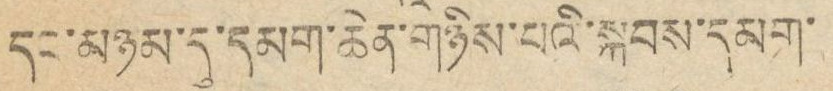དང་མཉམ་དུ་དམག་ཆེན་གཉིས་པའི་སྐབས་དམག་
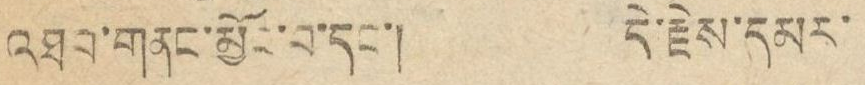འཐབ་གནང་མྱོང་བ་དང་། དེ་རྗེས་དམར་
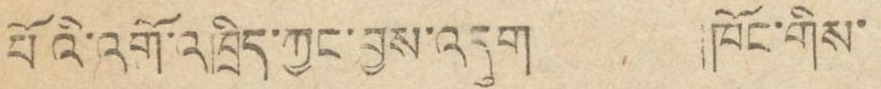པོའི་འགོ་འཁྲིད་ཀྱང་བྱས་འདུག །ཁོང་གིས་
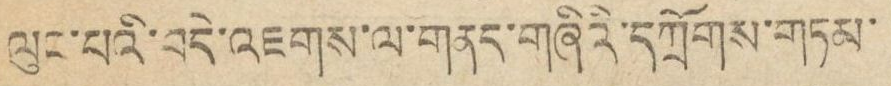ལུང་པའི་བདེ་འཇགས་ལ་གནད་གཞིའི་དཀྲོགས་གཏམ་
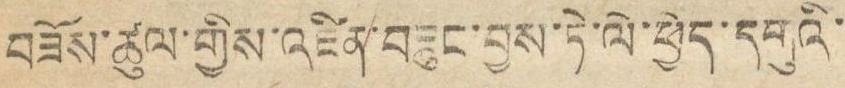བཟོས་ཚུལ་གྱིས་འཛིན་བཟུང་བྱས་ཏེ་ལེ་ཕྱེད་དགུའི་
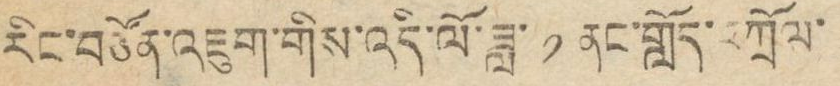རིང་བཙོན་འཇུག་གིས་འདི་ལོ་ཟླ་ ༡ ནང་གློད་བཀྲོལ་
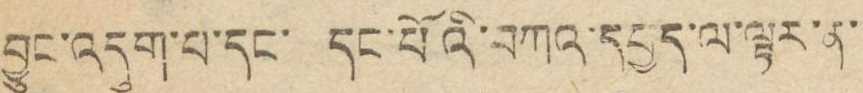བྱུང་འདུག་པ་དང་ དང་པོའི་བཀའ་དཔྱད་ལ་ལྟར་ན་
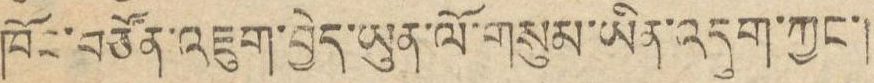ཁོང་བཙོན་འཇུག་བྱེད་ཡུན་ལོ་གསུམ་ཡིན་འདུག་ཀྱང་།
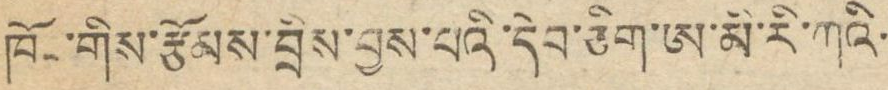ཁོང་གིས་རྩོམས་བྲིས་བྱས་པའི་དེབ་ཅིག་ཨ་མི་རི་ཀའི་
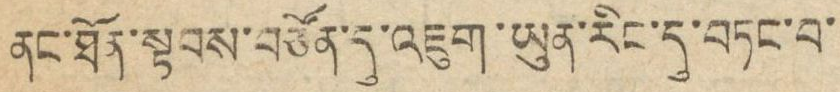ནང་ཐོན་སྟབས་བཙོན་དུ་འཇུག་ཡུན་རིང་དུ་བཏང་བ་
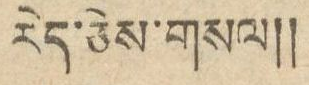རེད་ཅེས་གསལ།།
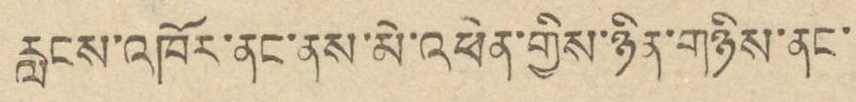རླངས་འཁོར་ནང་ནས་མེ་འཕེན་གྱིས་ཉིན་གཉིས་ནང་
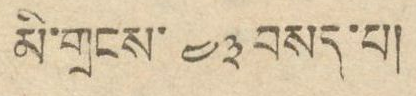མི་གྲངས་ ༤༣ བསད་པ།
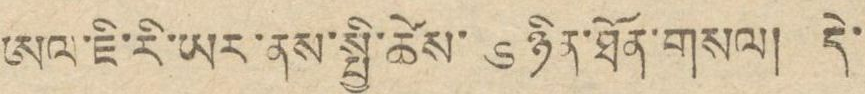ཨལ་ཇི་རི་ཡར་ནས་སྤྱི་ཚེས་ ༦ ཉིན་ཐོན་གསལ། དེ་
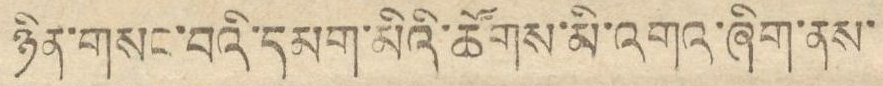ཉིན་གསང་བའི་དམག་མིའི་ཚོགས་མི་འགའ་ཞིག་ནས་
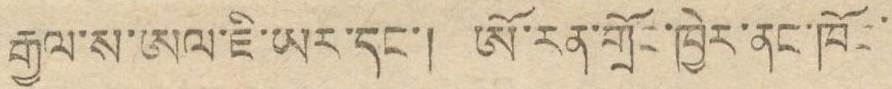རྒྱལ་ས་ཨལ་ཇི་ཡར་དང་། ཨོ་རན་གྲོང་ཁྱེར་ནང་ཁོང་
